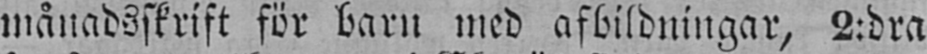månadsskrift för barn med afbildningar, 2:dra
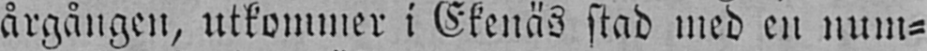årgången, utkommer i Ekenäs stad med en num-
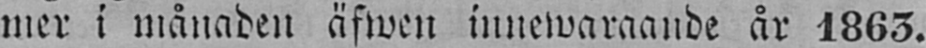mer i månaden äfwen innewaraande år 1863.
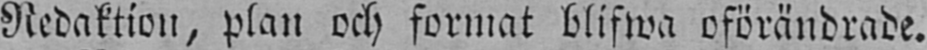Redaktion, plan och format blifwa oförändrade.
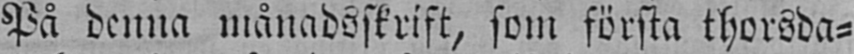På denna månadsskrift, som första thorsda-
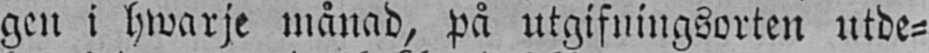gen i hwarje månad, på utgifningsorten utde-
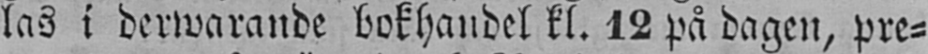las i derwarande bokhandel kl. 12 på dagen, pre-
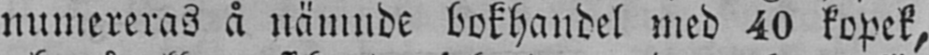numereras å nämnde bokhandel med 40 kopek,
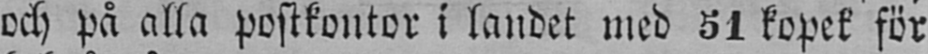och på alla postkontor i landet med 51 kopek för
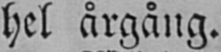hel årgång.
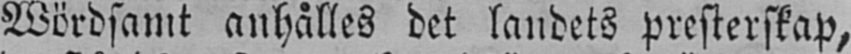Wördsamt anhålles det landets presterskap,
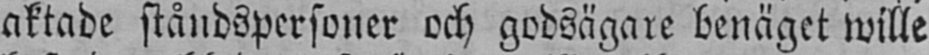aktade ståndspersoner och godsägare benäget wille
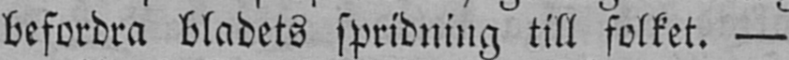befordra bladets spridning till folket. —
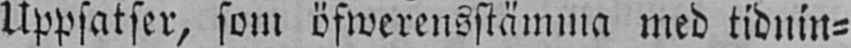Uppsatser, som öfwerensstämma med tidnin-
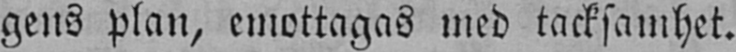gens plan, emottagas med tacksamhet.
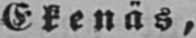Ekenäs,
